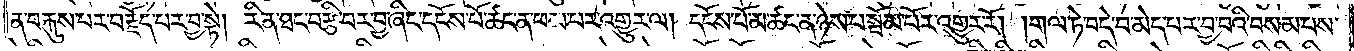ན་བརྐུས་པར་བརྗོད་པར་བྱ་སྟེ། རིན་ཐང་བརྩི་བར་བྱ་ཞིང་དངོས་པོ་ཚང་ན་ཕམ་པར་འགྱུར་ལ། དངོས་པོ་མ་ཚང་ན་ཉེས་པ་སྦོམ་པོར་འགྱུར་རོ། །གལ་ཏེ་བདེ་བ་མེད་པར་བྱ་བའི་བསམ་པས་
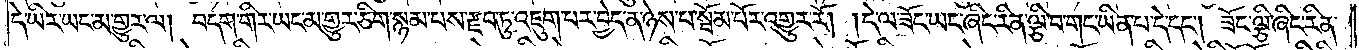དེ་ཡིར་ཡང་མ་གྱུར་ལ། བདག་གིར་ཡང་མ་གྱུར་ཅིག་སྙམ་པས་རྫབ་ཏུ་འཇུག་པར་བྱེད་ན་ཉེས་པ་སྦོམ་པོར་འགྱུར་རོ། །དེ་ལ་ཟོང་ཡང་ཞིང་རིན་ལྕི་བ་གང་ཡིན་པ་དེ་དང༌། ཟོང་ལྕི་ཞིང་རིན་
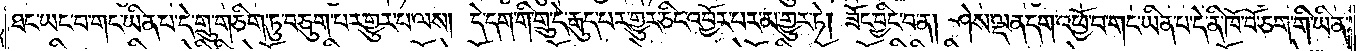ཐང་ཡང་བ་གང་ཡིན་པ་དེ་གྲུ་གཅིག་ཏུ་བཅུག་པར་གྱུར་པ་ལས། དེ་དག་གི་གྲུ་དེ་རྒུད་པར་གྱུར་ཅིང་འབྱོར་པར་མ་གྱུར་ཏེ། ཟོང་བྱིང་བ་ན། ཤེས་ལྡན་དག་འཕྱོ་བ་གང་ཡིན་པ་དེ་ནི་ཁོ་བོ་ཅག་གི་ཡིན་
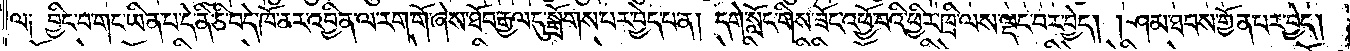ལ༑ བྱིང་བ་གང་ཡིན་པ་དེ་ནི་ཅི་བདེ་ཁོ་ནར་འབྱིན་ལ་རག་གོ་ཞེས་ཐོབ་རྒྱལ་དུ་སྒྲོགས་པར་བྱེད་པ་ན། དགེ་སློང་གིས་ཟོང་འཕྱོ་བའི་ཕྱིར་ཁྲི་ལས་ལྡང་བར་བྱེད། །ཤམ་ཐབས་གྱོན་པར་བྱེད།
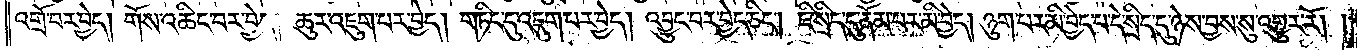འགྲོ་བར་བྱེད། གོས་འཆིང་བར་བྱེད། ཆུར་འཇུག་པར་བྱེད། གཏིང་དུ་འཇུག་པར་བྱེད། འབྱུང་བར་བྱེད་ཅིང༌། ཇི་སྲིད་དུ་ནོམ་པར་མི་བྱེད། ཉུག་པར་མི་བྱེད་པ་དེ་སྲིད་དུ་ཉེས་བྱས་སུ་འགྱུར་རོ། །
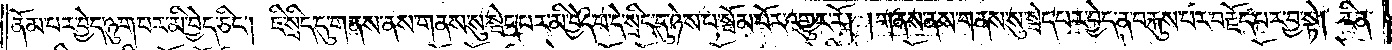ནོམ་པར་བྱེད་ཉུག་པར་མི་བྱེད་ཅིང༌། ཇི་སྲིད་དུ་གནས་ནས་གནས་སུ་སྦེད་པར་མི་བྱེད་པ་དེ་སྲིད་དུ་ཉེས་པ་སྦོམ་པོར་འགྱུར་རོ། །གནས་ནས་གནས་སུ་སྦེད་པར་བྱེད་ན་བརྐུས་པར་བརྗོད་པར་བྱ་སྟེ། རིན་
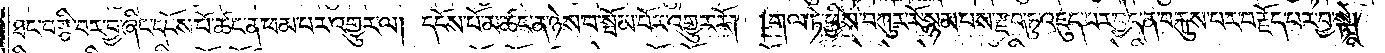ཐང་བརྩི་བར་བྱ་ཞིང་དངོས་པོ་ཚང་ན་ཕམ་པར་འགྱུར་ལ། དངོས་པོ་མ་ཚང་ན་ཉེས་པ་སྦོམ་པོར་འགྱུར་རོ། །གལ་ཏེ་ཕྱིས་བཀུར་རོ་སྙམ་པས་རྫབ་ཏུ་འདུད་པར་བྱེད་ན་བརྐུས་པར་བརྗོད་པར་བྱ་སྟེ།
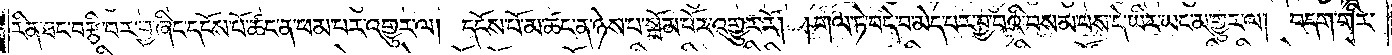རིན་ཐང་བརྩི་བར་བྱ་ཞིང་དངོས་པོ་ཚང་ན་ཕམ་པར་འགྱུར་ལ། དངོས་པོ་མ་ཚང་ན་ཉེས་པ་སྦོམ་པོར་འགྱུར་རོ། །གལ་ཏེ་བདེ་བ་མེད་པར་བྱ་བའི་བསམ་པས་དེ་ཡིར་ཡང་མ་གྱུར་ལ། བདག་གིར་
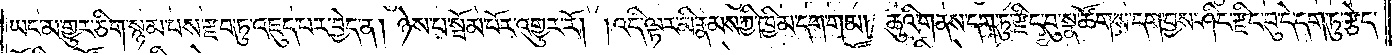ཡང་མ་གྱུར་ཅིག་སྙམ་པས་རྫབ་ཏུ་འཇུད་པར་བྱེད་ན། ཉེས་པ་སྦོམ་པོར་འགྱུར་རོ། །འདི་ལྟར་མི་རྣམས་ཀྱི་ཁྱིམ་དག་གམ། ཆུའི་གནས་དག་ཏུ་རྫིང་བུ་སྣ་ཚོགས་དག་བྱས་ཤིང་རྫིང་བུ་དེ་དག་ཏུ་རྩེད་
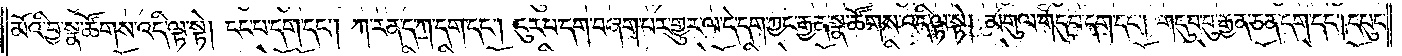མོའི་བྱ་སྣ་ཚོགས་འདི་ལྟ་སྟེ། ངང་པ་དག་དང༌། ཀ་རན་ད་ཀ་དག་དང༌། ངུར་པ་དག་བཞག་པར་གྱུར་ལ་དེ་དག་ཀྱང་རྒྱན་སྣ་ཚོགས་འདི་ལྟ་སྟེ། མགུལ་གདུབ་དག་དང༌། གདུབ་བུ་རྒྱན་ཅན་དག་དང༌། དཔུང་
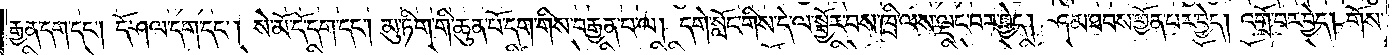རྒྱན་དག་དང༌། དོ་ཤལ་དག་དང༌། སེ་མོ་དོ་དག་དང༌། མུ་ཏིག་གི་ཆུན་པོ་དག་གིས་བརྒྱན་པ་ལ། དགེ་སློང་གིས་དེ་ལ་སྦྱོར་བས་ཁྲི་ལས་ལྡང་བར་བྱེད། ཤམ་ཐབས་གྱོན་པར་བྱེད། འགྲོ་བར་བྱེད། གོས་
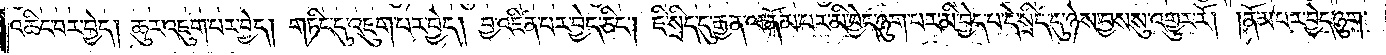འཆིང་བར་བྱེད། ཆུར་འཇུག་པར་བྱེད། གཏིང་དུ་འཇུག་པར་བྱེད། བྱ་འཛིན་པར་བྱེད་ཅིང༌། ཇི་སྲིད་དུ་རྒྱན་ལ་ནོམ་པར་མི་བྱེད་ཉུག་པར་མི་བྱེད་པ་དེ་སྲིད་དུ་ཉེས་བྱས་སུ་འགྱུར་རོ། །ནོམ་པར་བྱེད་ཉུག་
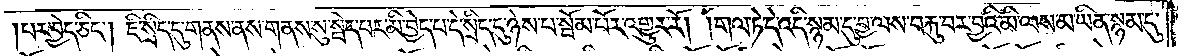།པར་བྱེད་ཅིང༌། ཇི་སྲིད་དུ་གནས་ནས་གནས་སུ་སྦེད་པར་མི་བྱེད་པ་དེ་སྲིད་དུ་ཉེས་པ་སྦོམ་པོར་འགྱུར་རོ། །གལ་ཏེ་དེ་འདི་སྙམ་དུ་བྱ་ལས་བརྐུ་བར་བྱའི་མི་ལས་མ་ཡིན་སྙམ་དུ་
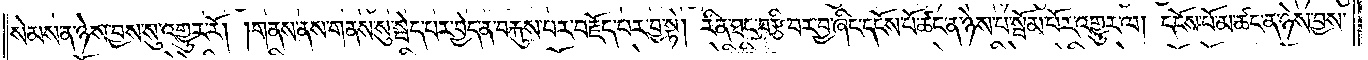སེམས་ན་ཉེས་བྱས་སུ་འགྱུར་རོ། །གནས་ནས་གནས་སུ་སྦེད་པར་བྱེད་ན་བརྐུས་པར་བརྗོད་པར་བྱ་སྟེ། རིན་ཐང་བརྩི་བར་བྱ་ཞིང་དངོས་པོ་ཚང་ན་ཉེས་པ་སྦོམ་པོར་འགྱུར་ལ། དངོས་པོ་མ་ཚང་ན་ཉེས་བྱས་
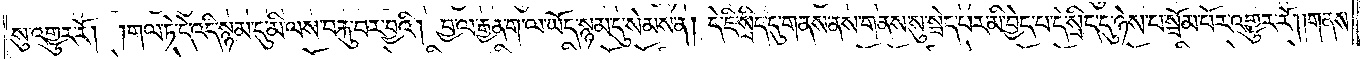སུ་འགྱུར་རོ། །གལ་ཏེ་དེ་འདི་སྙམ་དུ་མི་ལས་བརྐུ་བར་བྱའི། །བྱ་ལ་རྒྱན་ག་ལ་ཡོད་སྙམ་དུ་སེམས་ན། དེ་ཇི་སྲིད་དུ་གནས་ནས་གནས་སུ་སྦེད་པར་མི་བྱེད་པ་དེ་སྲིད་དུ་ཉེས་པ་སྦོམ་པོར་འགྱུར་རོ། །གནས་
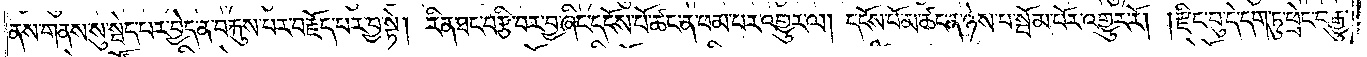ནས་གནས་སུ་སྦེད་པར་བྱེད་ན་བརྐུས་པར་བརྗོད་པར་བྱ་སྟེ། རིན་ཐང་བརྩི་བར་བྱ་ཞིང་དངོས་པོ་ཚང་ན་ཕམ་པར་འགྱུར་ལ། དངོས་པོ་མ་ཚང་ན་ཉེས་པ་སྦོམ་པོར་འགྱུར་རོ། །རྫིང་བུ་དེ་དག་ཏུ་ཕྲེང་བ་རྒྱུ་
